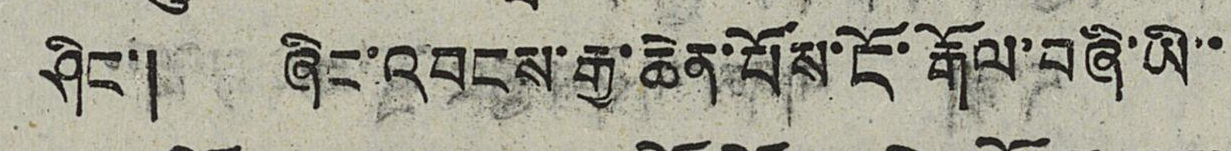ཤིང་། ཞིང་འབངས་རྒྱ་ཆེན་པོས་ངོ་རྒོལ་བཞི་ཡི་་
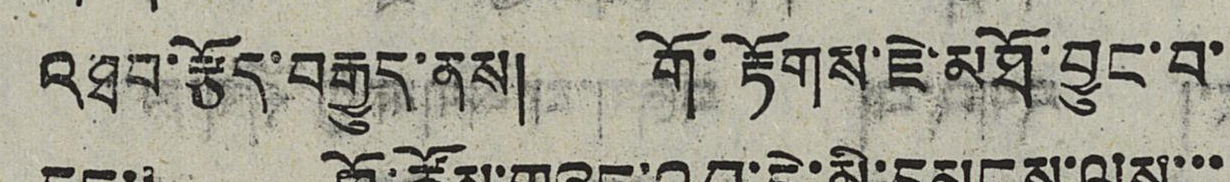འཐབ་རྩོད་བརྒྱུད་ནས། གོ་རྟོགས་ཇེ་མཐོ་བྱུང་བ་
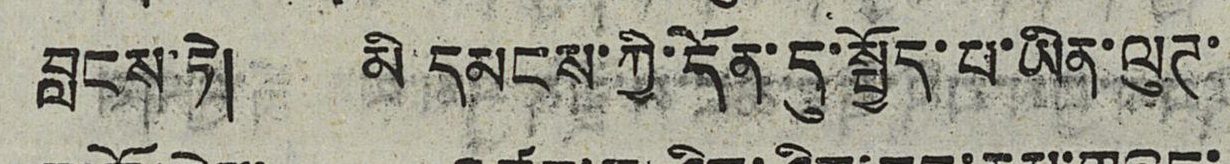བླངས་ཏེ། མི་དམངས་ཀྱི་དོན་དུ་སྤྱོད་པ་ཡིན་ལུཊ་
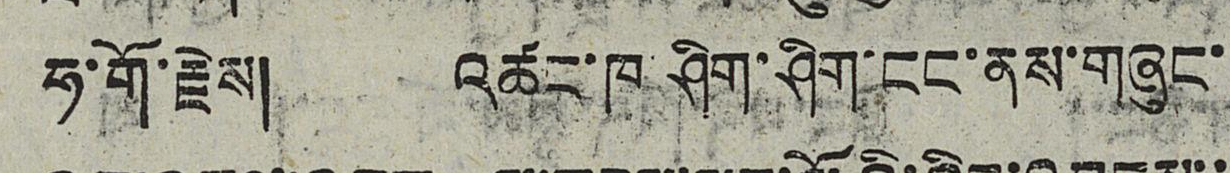ཧ་གོ་རྗེས། འཚང་ཁ ཤིག་ཤིག་ངང་ནས་གཞུང་
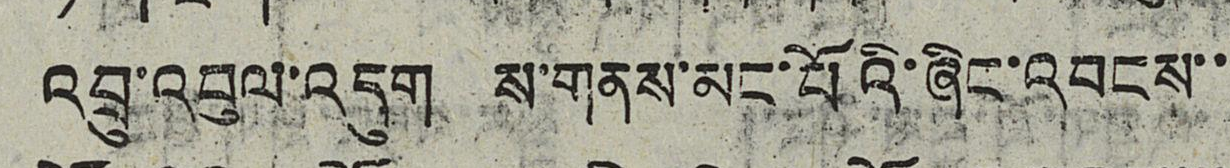འབྲུ་འབུལ་འདུག ས་གནས་མང་པོའི་ཞིང་འབངས་་
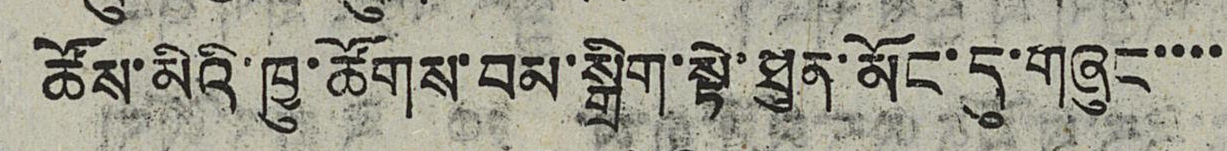ཚོས་མིའི་ཁྱུ་ཚོགས་བམ་སྒྲིག་སྟེ་ཕྱུན་མོང་དུ་གཞུང་་་་
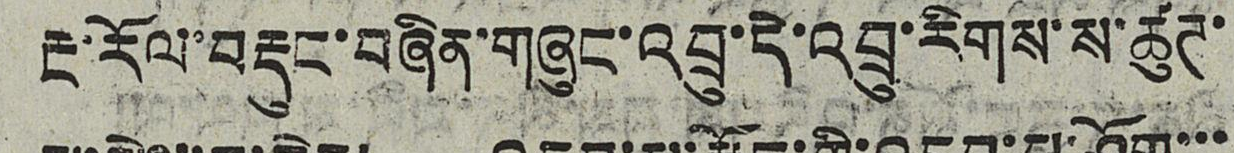རྔ་རོལ་བརྡུང་བཞིན་གཞུང་འབྲུ་དེ་འབྲུ་རིགས་ས་ཚུཊ་
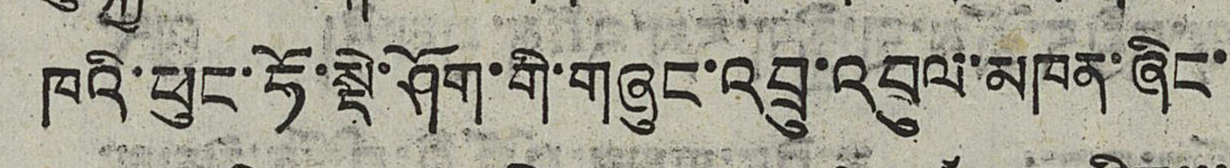ཁའི་ཕུང་ཧོ་སྡེ་ཤོག་གི་གཞུང་འབྲུ་འབུལ་མཁན་ཞིང་
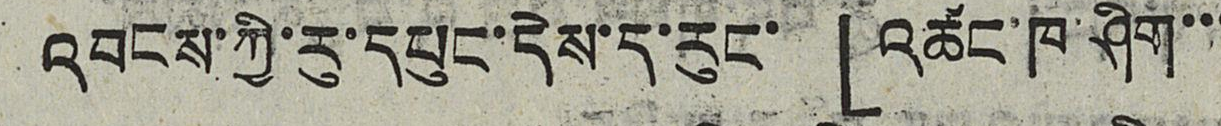འབངས་ཀྱི་རུ་དཔུང་དེས་ད་རུང་ 「འཚང་ཁ་ཤིག་་་
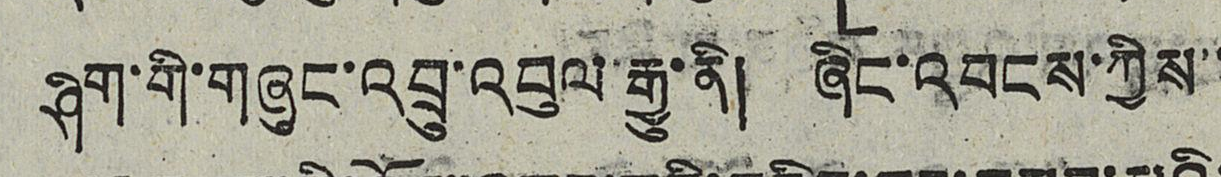ཤག་གི་གཞུང་འབྲུ་འབུལ་རྒྱུ་ནི། ཞིང་འབངས་ཀྱིས་་
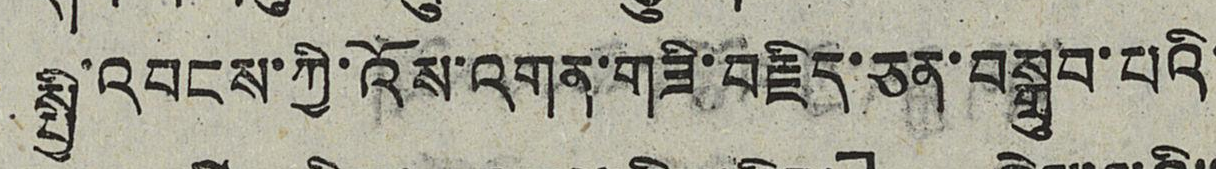སྤྱི་འབངས་ཀྱི་འོས་འགན་གཟི་བརྗིད་ཅན་བསྒྲུབ་པའི་
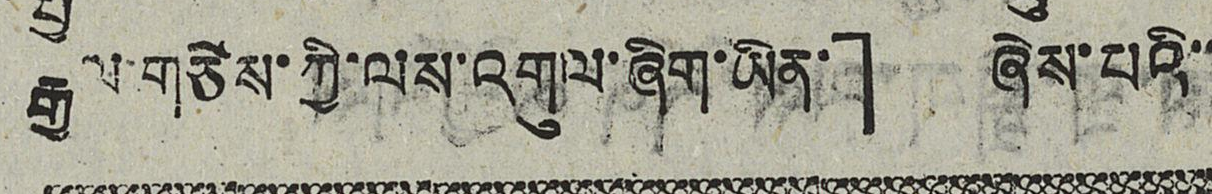རྒྱལ་གཅེས་ཀྱི་ལས་འགུལ་ཞིག་ཡིན་」 ཞེས་པའི་་
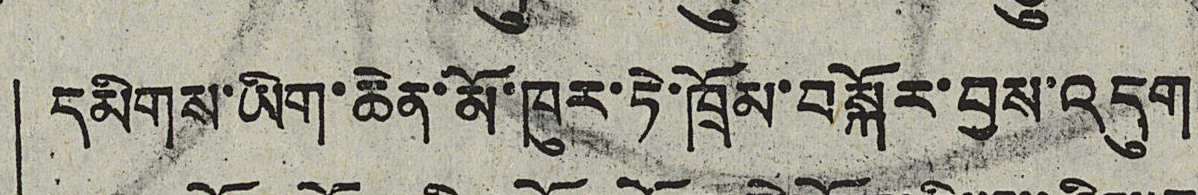དམིགས་ཡིག་ཆེན་མོ་ཁྱུར་ཏེ་ཁྲོམ་བསྐོར་བྱས་འདུག
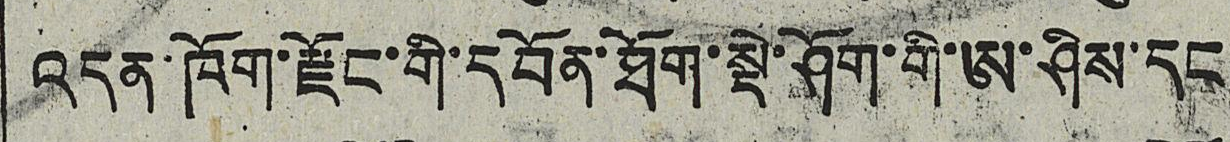འདུན་ཁོག་རྫོང་གི་དབོན་ཐོག་སྡེ་ཤོག་གི་ཨ་ཤིས་དང
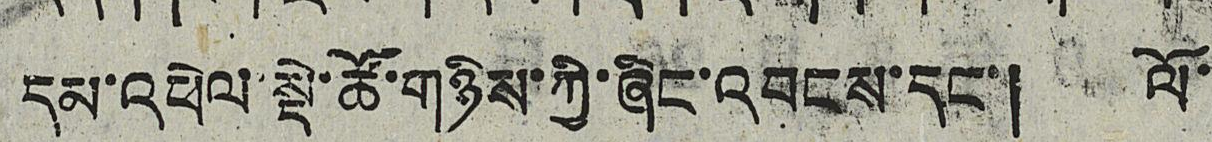དམ་འཕེལ་སྡེ་ཚོ་གཉིས་ཀྱི་ཞིང་འབངས་དང་། ལོ་
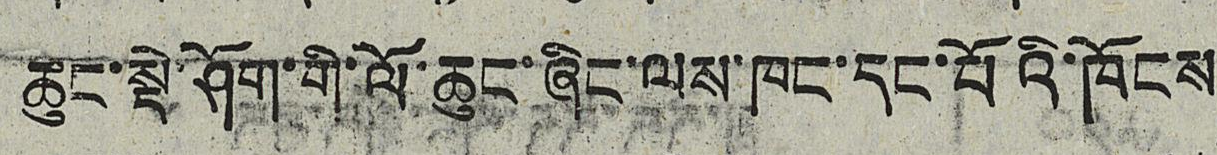ཆུང་སྡེ་ཤོག་གི་ལོ་ཆུང་ཞིང་ལས་ཁང་དང་པོའི་ཁོངས
